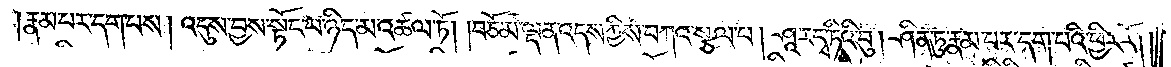རྣམ་པར་དག་པས། འདུས་བྱས་སྟོང་པ་ཉིད་མ་འཚལ་ཏོ། །བཅོམ་ལྡན་འདས་ཀྱིས་བཀའ་སྩལ་པ། ཤཱ་ར་དྭ་ཏིའི་བུ། ཤིན་ཏུ་རྣམ་པར་དག་པའི་ཕྱིར་རོ། །
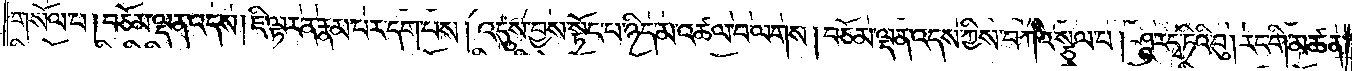གསོལ་པ། བཅོམ་ལྡན་འདས། ཇི་ལྟར་ན་རྣམ་པར་དག་པས། འདུས་བྱས་སྟོང་པ་ཉིད་མ་འཚལ་བ་ལགས། བཅོམ་ལྡན་འདས་ཀྱིས་བཀའ་སྩལ་པ། ཤཱ་ར་དྭ་ཏིའི་བུ། རང་གི་མཚན་
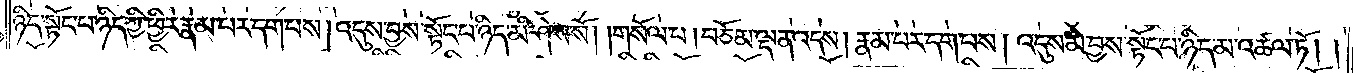ཉིད་སྟོང་པ་ཉིད་ཀྱི་ཕྱིར་རྣམ་པར་དག་པས། འདུས་བྱས་སྟོང་པ་ཉིད་མི་ཤེས་སོ། །གསོལ་པ། བཅོམ་ལྡན་འདས། རྣམ་པར་དག་པས། འདུས་མ་བྱས་སྟོང་པ་ཉིད་མ་འཚལ་ཏོ། །
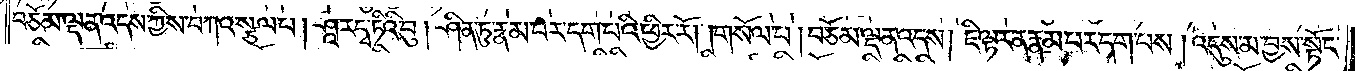བཅོམ་ལྡན་འདས་ཀྱིས་བཀའ་སྩལ་པ། ཤཱ་ར་དྭ་ཏིའི་བུ། ཤིན་ཏུ་རྣམ་པར་དག་པའི་ཕྱིར་རོ། །གསོལ་པ། བཅོམ་ལྡན་འདས། ཇི་ལྟར་ན་རྣམ་པར་དག་པས། འདུས་མ་བྱས་སྟོང་
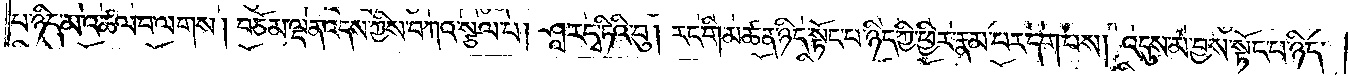པ་ཉིད་མ་འཚལ་བ་ལགས། བཅོམ་ལྡན་འདས་ཀྱིས་བཀའ་སྩལ་པ། ཤཱ་ར་དྭ་ཏིའི་བུ། རང་གི་མཚན་ཉིད་སྟོང་པ་ཉིད་ཀྱི་ཕྱིར་རྣམ་པར་དག་པས། འདུས་མ་བྱས་སྟོང་པ་ཉིད་
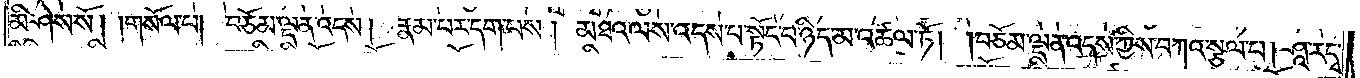མི་ཤེས་སོ། །གསོལ་པ། བཅོམ་ལྡན་འདས། རྣམ་པར་དག་པས། མཐའ་ལས་འདས་པ་སྟོང་པ་ཉིད་མ་འཚལ་ཏོ། །བཅོམ་ལྡན་འདས་ཀྱིས་བཀའ་སྩལ་པ། ཤཱ་ར་དྭ་
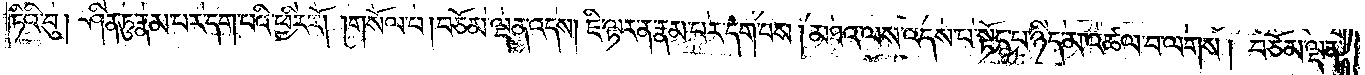ཏིའི་བུ། ཤིན་ཏུ་རྣམ་པར་དག་པའི་ཕྱིར་རོ། །གསོལ་པ། བཅོམ་ལྡན་འདས། ཇི་ལྟར་ན་རྣམ་པར་དག་པས། མཐའ་ལས་འདས་པ་སྟོང་པ་ཉིད་མ་འཚལ་བ་ལགས། བཅོམ་ལྡན་
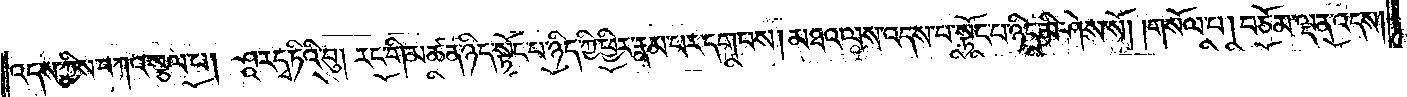འདས་ཀྱིས་བཀའ་སྩལ་པ། ཤཱ་ར་དྭ་ཏིའི་བུ། རང་གི་མཚན་ཉིད་སྟོང་པ་ཉིད་ཀྱི་ཕྱིར་རྣམ་པར་དག་པས། མཐའ་ལས་འདས་པ་སྟོང་པ་ཉིད་མི་ཤེས་སོ། །གསོལ་པ། བཅོམ་ལྡན་འདས།
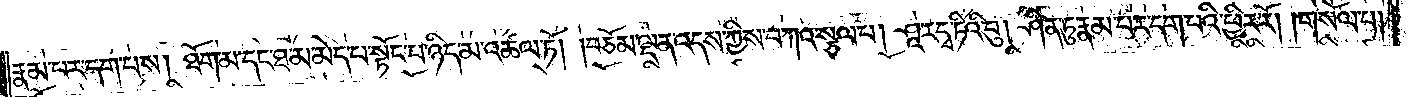རྣམ་པར་དག་པས། ཐོག་མ་དང་ཐ་མ་མེད་པ་སྟོང་པ་ཉིད་མ་འཚལ་ཏོ། །བཅོམ་ལྡན་འདས་ཀྱིས་བཀའ་སྩལ་པ། ཤཱ་ར་དྭ་ཏིའི་བུ། ཤིན་ཏུ་རྣམ་པར་དག་པའི་ཕྱིར་རོ། །གསོལ་པ།
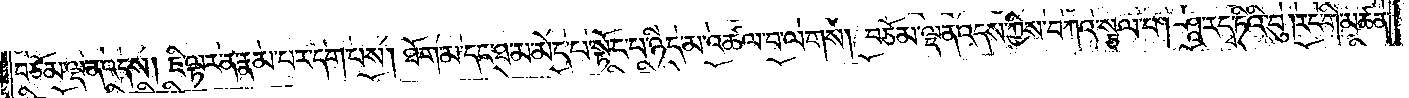བཅོམ་ལྡན་འདས། ཇི་ལྟར་ན་རྣམ་པར་དག་པས། ཐོག་མ་དང་ཐ་མ་མེད་པ་སྟོང་པ་ཉིད་མ་འཚལ་བ་ལགས། བཅོམ་ལྡན་འདས་ཀྱིས་བཀའ་སྩལ་པ། ཤཱ་ར་དྭ་ཏིའི་བུ། རང་གི་མཚན་
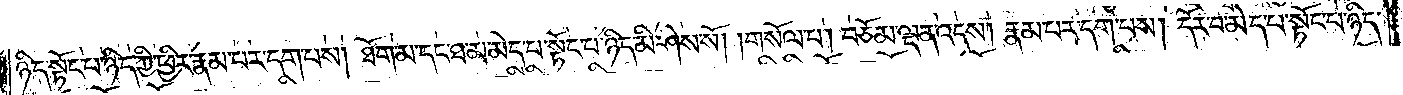ཉིད་སྟོང་པ་ཉིད་ཀྱི་ཕྱིར་རྣམ་པར་དག་པས། ཐོག་མ་དང་ཐ་མ་མེད་པ་སྟོང་པ་ཉིད་མི་ཤེས་སོ། །གསོལ་པ། བཅོམ་ལྡན་འདས། རྣམ་པར་དག་པས། དོར་བ་མེད་པ་སྟོང་པ་ཉིད་
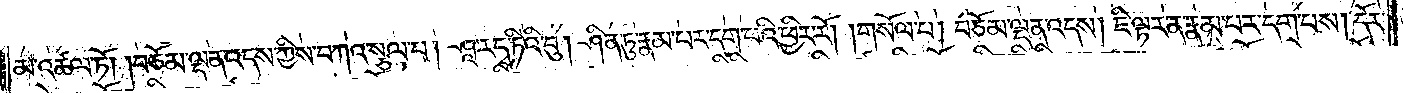མ་འཚལ་ཏོ། །བཅོམ་ལྡན་འདས་ཀྱིས་བཀའ་སྩལ་པ། ཤཱ་ར་དྭ་ཏིའི་བུ། ཤིན་ཏུ་རྣམ་པར་དག་པའི་ཕྱིར་རོ། །གསོལ་པ། བཅོམ་ལྡན་འདས། ཇི་ལྟར་ན་རྣམ་པར་དག་པས། དོར་
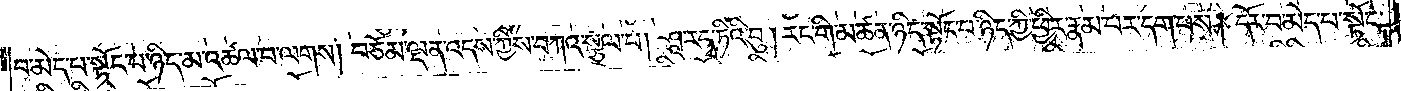བ་མེད་པ་སྟོང་པ་ཉིད་མ་འཚལ་བ་ལགས། བཅོམ་ལྡན་འདས་ཀྱིས་བཀའ་སྩལ་པ། ཤཱ་ར་དྭ་ཏིའི་བུ། རང་གི་མཚན་ཉིད་སྟོང་པ་ཉིད་ཀྱི་ཕྱིར་རྣམ་པར་དག་པས། དོར་བ་མེད་པ་སྟོང་
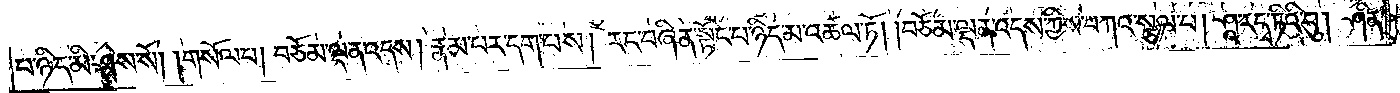པ་ཉིད་མི་ཤེས་སོ། །གསོལ་པ། བཅོམ་ལྡན་འདས། རྣམ་པར་དག་པས། རང་བཞིན་སྟོང་པ་ཉིད་མ་འཚལ་ཏོ། །བཅོམ་ལྡན་འདས་ཀྱིས་བཀའ་སྩལ་པ། ཤཱ་ར་དྭ་ཏིའི་བུ། ཤིན་
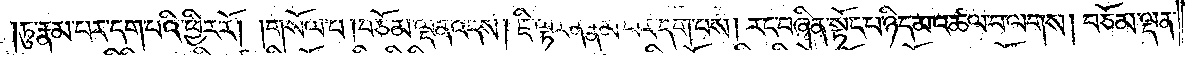ཏུ་རྣམ་པར་དག་པའི་ཕྱིར་རོ། །གསོལ་པ། བཅོམ་ལྡན་འདས། ཇི་ལྟར་ན་རྣམ་པར་དག་པས། རང་བཞིན་སྟོང་པ་ཉིད་མ་འཚལ་བ་ལགས། བཅོམ་ལྡན་
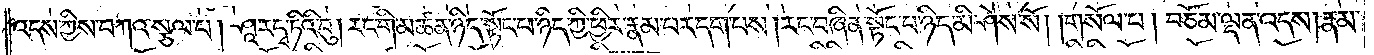འདས་ཀྱིས་བཀའ་སྩལ་པ། ཤཱ་ར་དྭ་ཏིའི་བུ། རང་གི་མཚན་ཉིད་སྟོང་པ་ཉིད་ཀྱི་ཕྱིར་རྣམ་པར་དག་པས། རང་བཞིན་སྟོང་པ་ཉིད་མི་ཤེས་སོ། །གསོལ་པ། བཅོམ་ལྡན་འདས། རྣམ་
